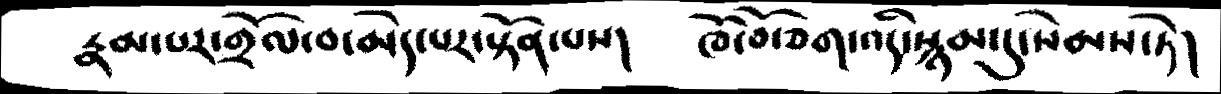རྣམ་པར་གྲོལ་བ་མེད་པར་སྟོན་པས།   ཁོ་བོ་ཅག་འདི་སྙམ་དུ་སེམས་ཏེ།
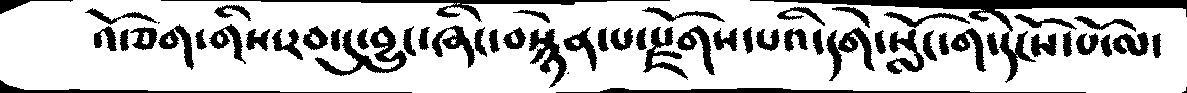འོ་ཅན་གིས་རབ་དུ་བྱུང་ཞིང་བསྙེན་པ་རྫོགས་པའི་དགེ་སློང་གི་དངོས་པོ་ལ་
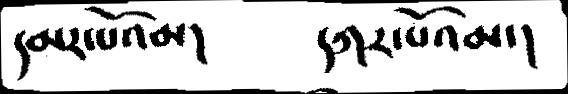དམར་པོའམ།  དཀར་པོའམ་།
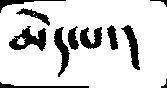མེད་པ་།
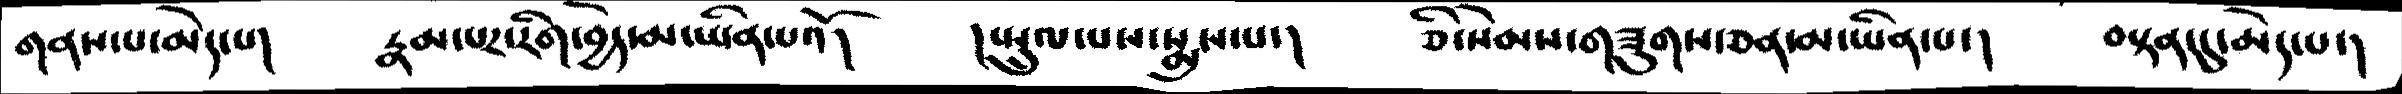གནས་པ་མེད་པ།   རྣམ་པར་རིག་བྱེད་མ་ཡིན་པའོ།   །སྤྲུལ་པས་སྨྲས་པ་།   ཅི་སེམས་གཟུགས་ཅན་མ་ཡིན་པ་།  བསྟན་དུ་མེད་པ་།
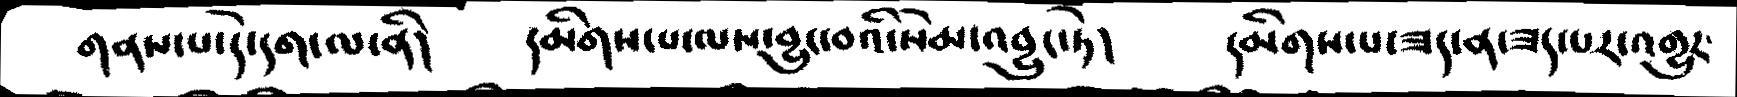གནས་པ་དེ་དག་ལ་ནི།       དམིགས་པལས་བྱུངབའི་སེམ་འབྱུང་ཏེ།    དམིགས་པ་ཟད་ན་ཟད་པར་འགྱུར་
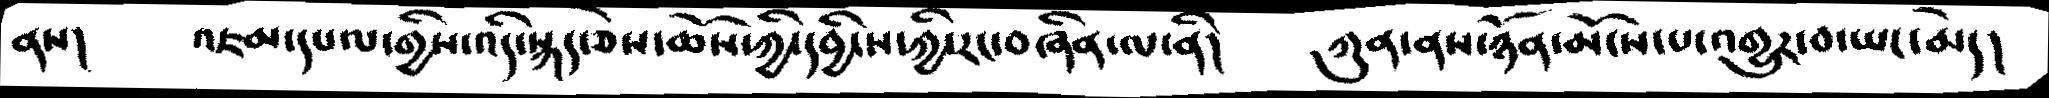ནས།   འཇམ་དཔལ་གྱིས་འདི་སྐད་ཅེས་ཆོས་ཀྱི་དབྱིངས་ཀྱི་རང་བཞིན་ལ་ནི།  ཀུན་ནས་ཉོན་མོངས་པ་འགྱུར་བ་ཡང་མེད།
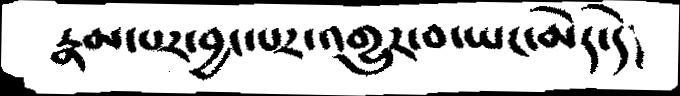རྣམ་པར་བྱང་པར་འགྱུར་བ་ཡང་མེད་དེ།
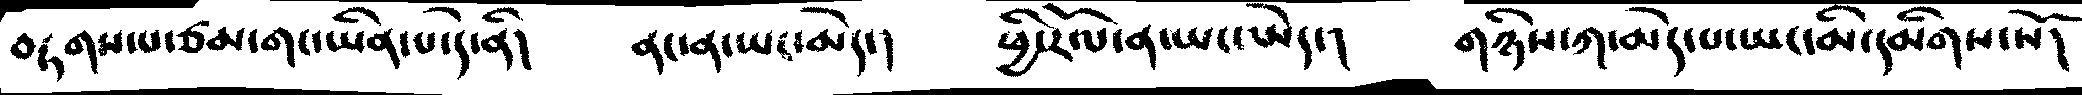བཏགས་པ་ཙམ་གང་ཡིན་པ་དེ་ནི།  ནང་ནས་ཡང་མེད་།  ཕྱི་རོལ་ན་ཡང་མེད་།   གཉིས་ཀ་མེད་པ་ཡང་མི་དམིགས་སོ།
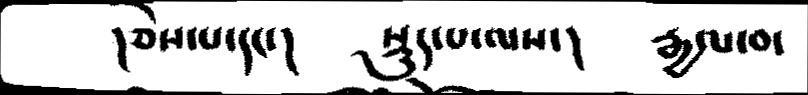།ཅེས་པ་དང་།   སྡུས་པ་ལས་།  རྒྱལ་བ་
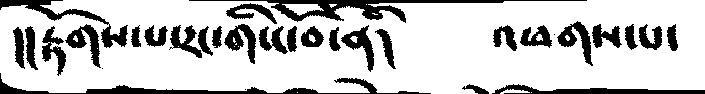།།རྟོགས་པ་རང་གི་ངོ་བོ་ནི།   འཕགས་པ་
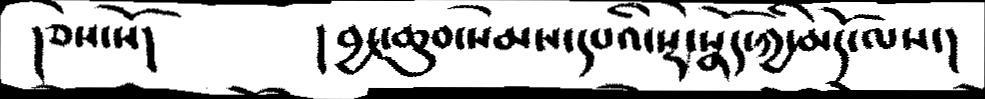།ཅེས་སོ།    །བྱང་ཆུབ་སེམས་དཔའི་སྡེ་སྣོད་ཀྱི་མདོ་ལས་།
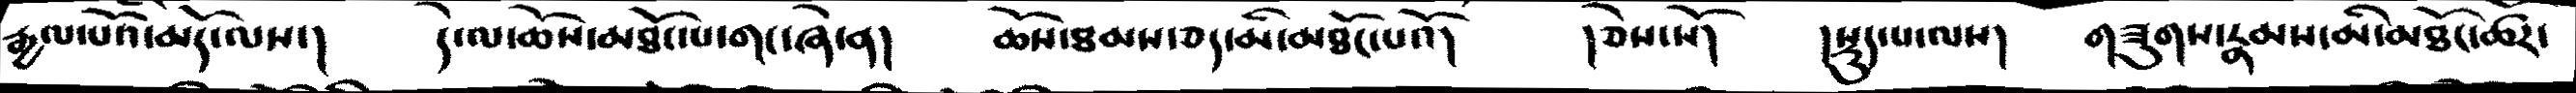རྒྱལ་པོའི་མདོ་ལས་།   དེ་ལ་ཆོས་མཐོང་པ་གང་ཞེ་ན།   ཆོས་ཐམས་ཅད་མི་མཐོང་པའོ།  །ཅེས་སོ།  །སྡུས་པ་ལས།  གཟུགས་རྣམས་མི་མཐོང་ཚར་
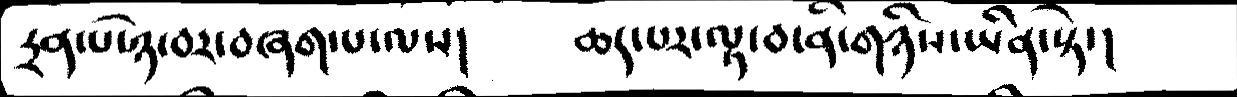དྲན་པ་ཉེ་བར་བཞག་པ་ལས།  ཆད་པར་ལྟ་བ་ནི་གཉིས་ཡིན་སྟེ་།
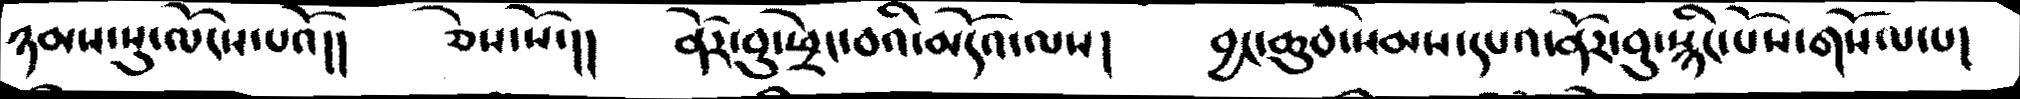ཉམས་སུ་ལོངས་པའོ།།   ཅེས་སོ་།།   ནོར་བུ་ཕྲེང་བའི་མདོའ་ལས།  བྱང་ཆུབ་སེམས་དཔའ་ནོར་བུ་སྙིང་པོས་གསོལ་པ།
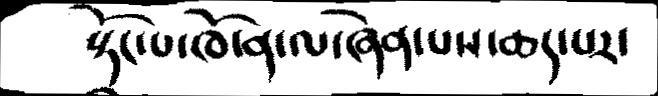སྟོང་པ་ཁོ་ན་ལ་ཞེན་པས་ཆད་པར་
